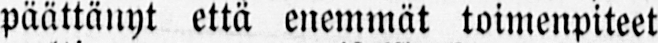päättänyt että enemmät toimenpiteet
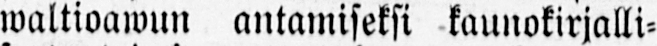waltioawun antamiseksi kaunokirjalli-
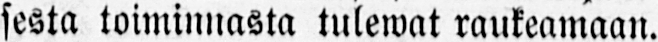sesta toiminnasta tulewat raukeamaan.
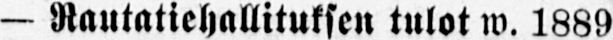— Rautatiehallituksen tulot w. 1889
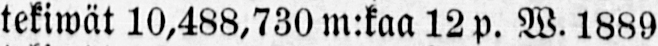tekiwät 10,488,730 m:kaa 12 p. W. 1889
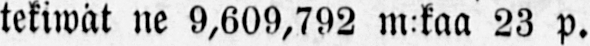tekiwät ne 9,609,792 m:kaa 23 p.
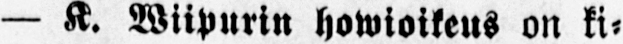— K. Wiipurin howioikeus on ki-
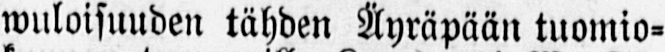wuloisuuden tähden Äyräpään tuomio-
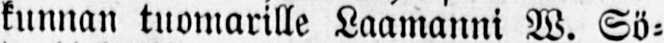kunnan tuomarille Laamanni W. Sö-
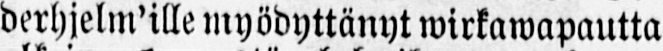derhjelm'ille myödyttänyt wirkawapautta
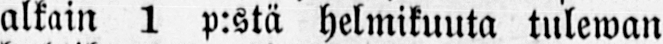aikain 1 p:stä helmikuuta tulewan
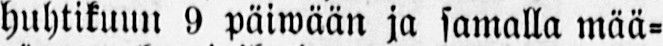huhtikuun 9 päiwään ja samalla mää-
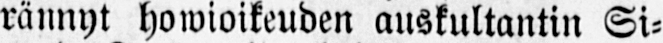rännyt howioikeuden auskultantin Si-
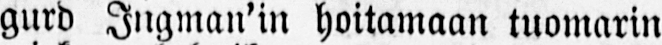gurd Ingman'in hoitamaan tuomarin
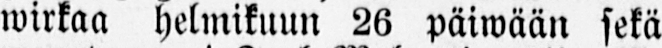wirkaa helmikuun 26 päiwään sekä
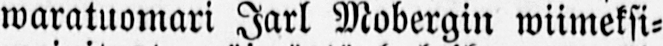waratuomari Jarl Mobergin wiiimeksi-
